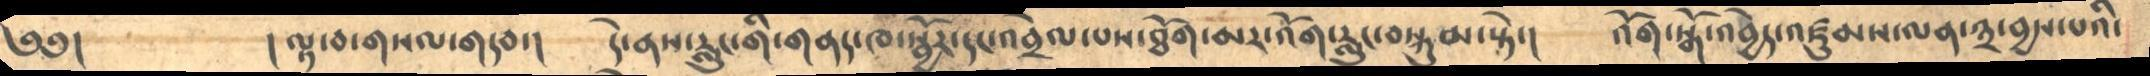༄༅།        །ལྟ་བ་གསལ་གདབ་།      དེ་ནས་རླུང་གི་གནད་ཁ་སྦྱོར་དང་འབྲེལ་པས་ཐོག་མར་འོག་རླུང་བསྐུམ་སྟེ་།    འོག་སྒོ་འབྱེད་འཛུམས་ལན་༣་བྱས་པའི་
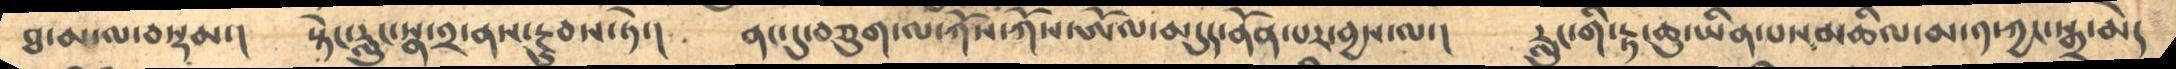ཐ་མ་ལ་བསྡམ་།    སྟེང་རླུང་སྣ་༢་ནས་རྔུབས་ཏེ་།    ནང་དུ་བཅུག་ལ་ཀོས་ཀོས་ཨོལ་མདུད་ནོན་པར་བྱས་ལ་།    རླུང་གི་རྟ་ཆུ་ཡིན་པས་མཆིལ་མ་༡་ཀྱང་སྒྲ་མེད
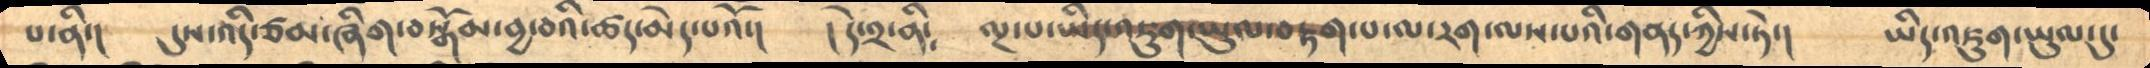པ་ནི་།    དུས་འདི་ཙམ་ཞིག་བསྒོམ་བྱ་བའི་ཚད་མེད་པའོ་།    །དེ་༢་ནི༴      ལྔ་པ་ཡིད་འཇུག་ཡུལ་བརྟག་པ་ལ་རག་ལས་པའི་གནད་ཀྱིས་ཏེ་།     ཡིད་འཇུག་ཡུལ་དུ་
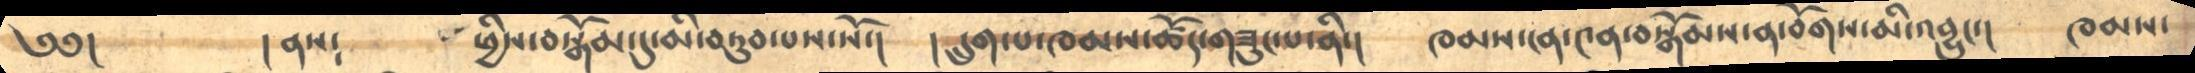༄༅།        །ནས༴   ཕྱིས་བསྒོམ་དུ་མི་བཏུབ་པས་སོ་།     །དྲུག་པ་ཁམས་ཚོད་གཟུང་པ་ནི་།    ཁམས་ངན་༤ན་བསྒོམས་ན་བོགས་མི་འབྱུང་།    ཁམས་
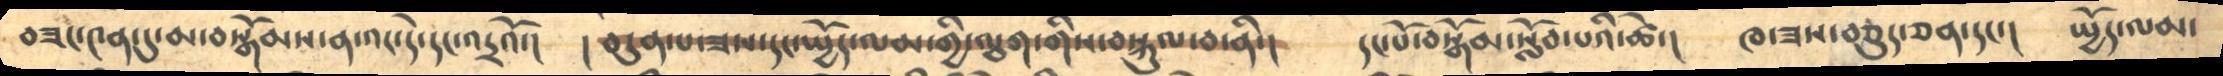བཟང་༤ན་དུ་མ་བསྒོམས་ན་འང་དེ་དང་འདྲའོ་།   ། བདུན་པ་ཟས་དང་སྤྱོད་ལམ་གྱི་ལྕག་གིས་བསྐུལ་བ་ནི་།    དང་པོ་བསྒོམ་སློབ་པའི་ཚེ་།    ཁ་ཟས་བཅུད་ཅན་དང་།   སྤྱོད་ལམ་
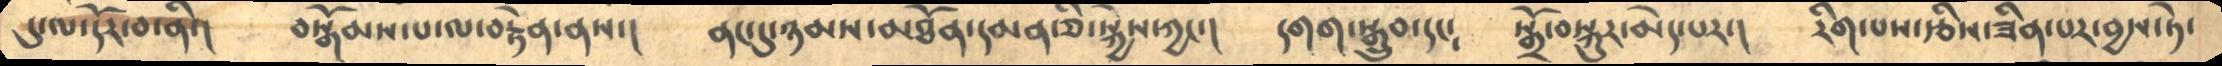དུ་ལ་དོར་བ་ནི་།     བསྒོམས་པ་ལ་བརྟེན་ནས་།     ནང་དུ་ཉམས་མཐོན་དམན་ཅི་སྐྱེས་ཀྱང་།    དགག་སྒྲུབ་དང༴    སྒྲོ་བསྐུར་མེད་པར་།   རིག་པས་རྩིས་ཟིན་པར་བྱས་ཏེ་
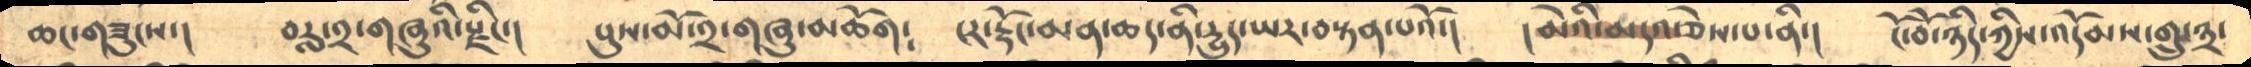ཆང་གཟུངས་།    བརླ་༢་གཞུའི་རྫིང་།      པུས་མོ་༢་གཞུ་མཆོག༴    ངར་རྡོང་མན་ཆད་ནི་དྱུད་ཡར་བསྟན་པའོ་།     །མེའི་མདའ་ཅེས་པ་ནི་།     ངོ་བོ་ཉིད་ཀྱིས་འདོམས་གྲུ་༣་
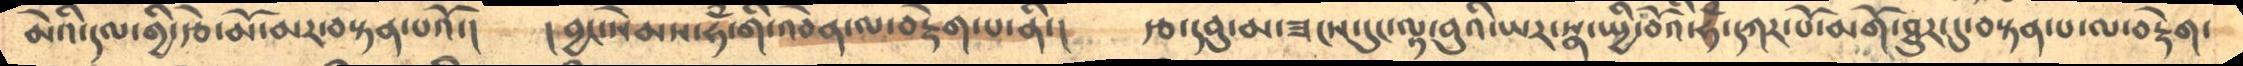མེའི་དལ་གྱི་རྩེ་མོ་མར་བསྟན་པའོ་།     །བྱང་སེམས་ཧཾ་གི་འབེན་ལ་བརྡེག་པ་ནི་།    རྩ་དབུ་མ་ཟངས་དུང་ལྟ་བུའི་ཡར་སྣ་སྤྱི་བོའི་ཧཾ་དཀར་པོ་མགོ་ཐུར་དུ་བསྟན་པ་ལ་བརྡེག་
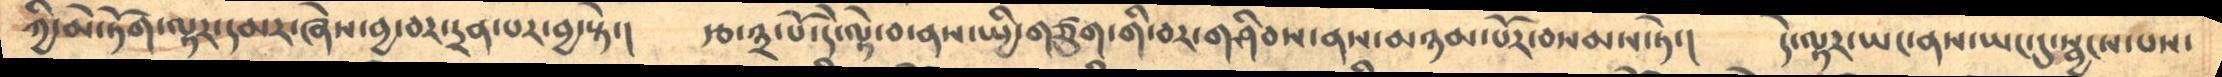ཀྱི་མེ་ཏོག་ལྟར་དམར་ཞེས་བྱ་བར་དྲན་པར་བྱ་སྟེ་།     རྩ་༣་པོ་དེ་ལྟེ་བ་ནས་སྤྱི་གཙུག་བར་གཤིབས་ནས་མཉམ་པོར་བསམས་ཏེ་།    དེ་ལྟར་ཡང་ནས་ཡང་དུ་སྦྱངས་པས་
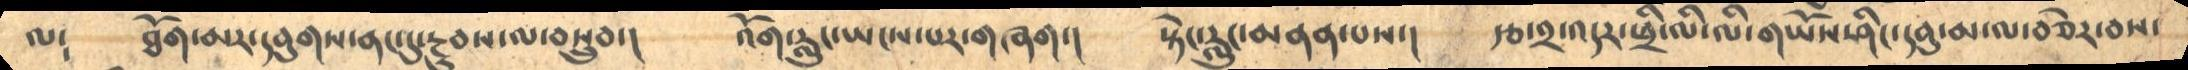ལ༴     ཐོག་མར་དབུགས་ནང་དུ་རྔུབས་ལ་བསྲུབ་།    འོག་རླུང་ཡངས་པར་གཞག་།    སྟེང་རླུང་མནན་པས་།     རྩ་༢་འདར་ཕྲི་ལི་ལི་གཡོས་ཤིང་དབུ་མ་ལ་བཅེར་བས་
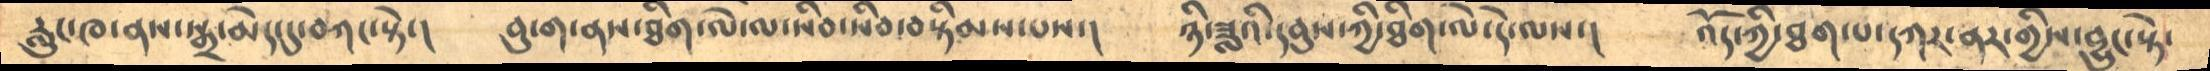རླུང་ཁ་ནས་སྒྲ་མེད་དུ་བཀང་སྟེ་།      བུ་ག་ནས་ཐིག་ལེ་ལ་སིབ་སིབ་བསྟིམས་པས་།       ཉི་ཟླའི་དབུས་ཀྱི་ཐིག་ལེ་དེ་ལས་།     འོད་ཀྱི་ཐག་པ་དཀར་ནར་གྱིས་བྱུང་སྟེ་
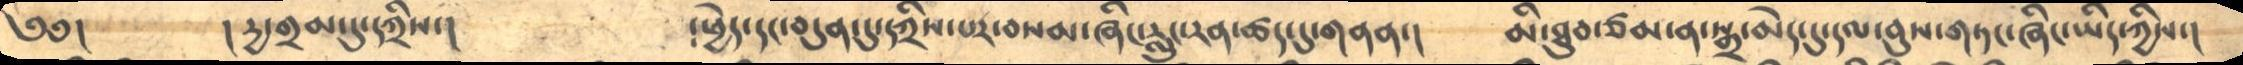༄༅།        །དྱ་གྲམ་དུ་དཀྲིས་།     །ཕྱེད་དང་བདུན་དུ་དཀྲིས་པར་བསམ་ཞིང་རླུང་རན་ཚད་དུ་གནན་།    མི་ཐུབ་ཙམ་ན་སྒྲ་མེད་དུ་དལ་བུས་གཏང་ཞིང་ཡིད་ཀྱིས་།
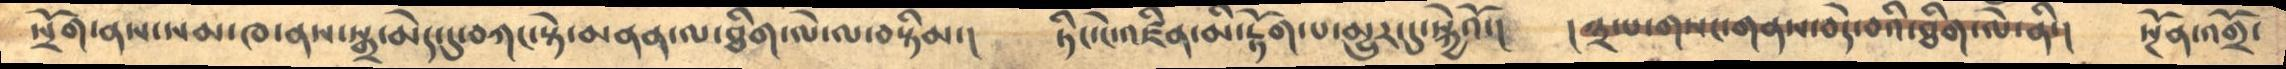སྲོག་ནས་སམ་ཁ་ནས་སྒྲ་མེད་དུ་བཀང་སྟེ་མནན་ལ་ཐིག་ལེ་ལ་བསྟིམ་།     ཏིང་ངེ་འཛིན་མི་རྟོག་པ་མྱུར་དུ་སྐྱེའོ་།      །༣་པ་གསང་གནས་བདེ་བའི་ཐིག་ལེ་ནི་།    སྔོན་འགྲོ་
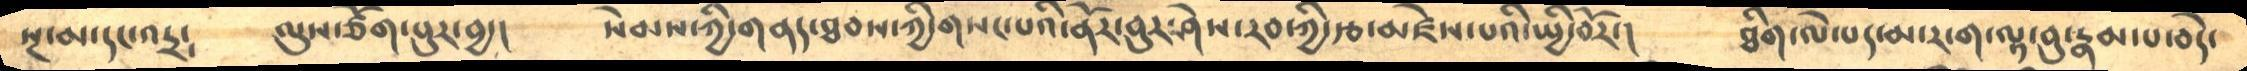སྔ་མ་དང་འདྲ༴      ལུས་གཅིག་པུར་བྱ་།      སེམས་ཀྱི་གནད་ཐབས་ཀྱི་གསང་པའི་ནོར་བུར་ཤེས་རབ་ཀྱི་རྩ་མཛེས་པའི་སྤྱི་བོར་།     ཐིག་ལེ་པད་མ་ར་ག་ལྟ་བུ་རྣམ་པ་བདེ་
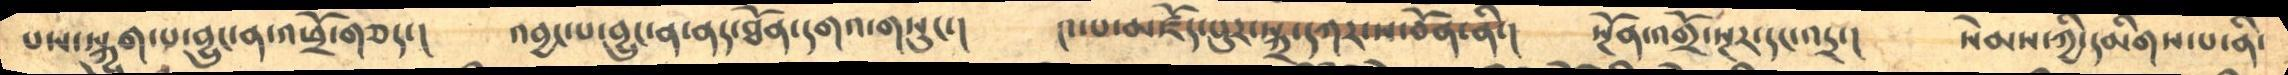པས་སྐྱུག་པ་བྱུང་ན་འཕྲོ་གཅད་།      འབྱང་པ་བྱུང་ན་ནད་ཐོན་དགའ་གསུང་།      ༤་པ་མཛོད་པུར་སྐྲ་དཀར་ས་བོན་ནི་།     སྔོན་འགྲོ་སྔར་དང་འདྲ་།     སེམས་ཀྱི་དམིགས་པ་ནི་
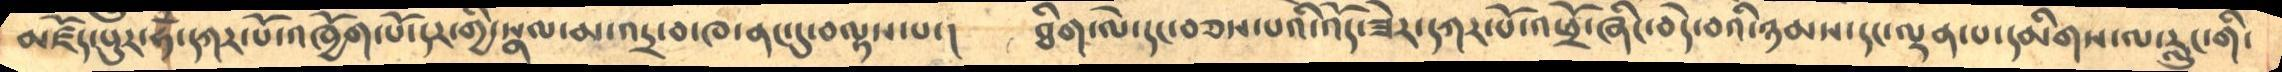མཛོད་པུར་ཧྃ་དཀར་པོ་འཁྱོག་པོ་དར་གྱི་སྣལ་མ་འདྲ་བ་ཁ་ནང་དུ་བལྟས་པ་།       ཐིག་ལེ་དང་བཅས་པའི་འོད་ཟེར་དཀར་པོ་འཕྲོ་ཞིང་བདེ་བའི་ཉམས་དང་ལྡན་པ་དམིགས་ལ་རླུང་གི་
